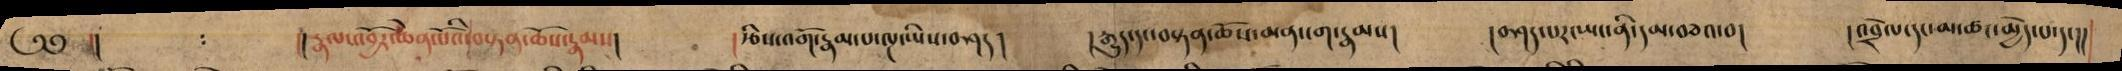༄༅ །། །།རྣལ་འབྱོར་ཆེན་པོའི་བསྟན་ཆོས་རྣམས། །རྩོས་འགོ་རྣམ་པ་ལྔ་ཡིས་བཤད། །རྒྱུད་དང་བསྟན་ཆོས་མན་ངག་རྣམས། །བཤད་པར་ཡང་ནི་དམ་བཅའ་བ། །འབྲེལ་དང་མ་ཚང་མྱེད་པ་དང་།།
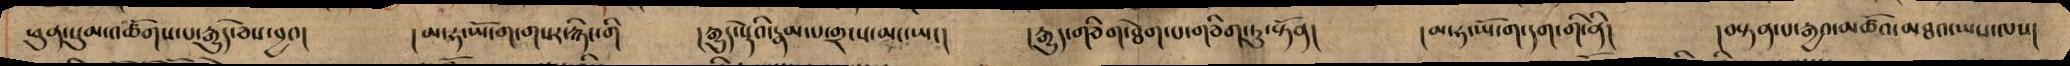ཕུན་སུམ་འཚོགས་པ་རྒྱུད་ཅེས་བྱའ། །མ་ཧ་ཡོ་ག་གསར་རྙིང་གི །རྒྱུད་སྡེའི་རྣམ་པ་གྲངས་མང་ཡང། །རྒྱུད་གཅིག་ཐེག་པ་གཅིག་ཏུ་སྟོན། །མ་ཧ་ཡོ་ག་དག་གི་ནི། །བསྟན་པ་རྒྱའ་མཚོའ་མཐའ་ཡས་ལས།
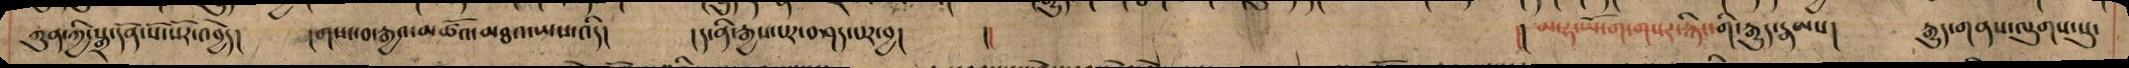ཀུན་གྱི་སྒྲ་དོན་སོ་སོར་འབྱེད། །གསང་བ་རྒྱའ་མཚོའ་མཐའ་ཡས་འདི། །ད་ནི་རྒྱས་པར་བཤད་པར་བྱ། །། །།མ་ཧ་ཡོ་ག་གསར་རྙིང་གི་རྒྱུད་རྣམས། རྒྱུད་གནས་ལུགས་སུ་
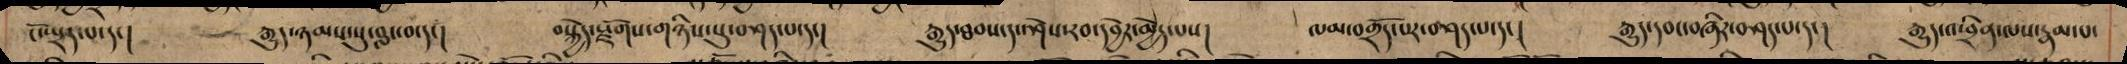ངོ་སྤྲད་པ་དང། རྒྱུད་ཉམས་སུ་བླང་བ་དང། བསྐྱེད་སྫོགས་གཉིས་སུ་བཤད་པ་དང། རྒྱུད་ཐབས་དང་ཤེས་རབ་དབྱེར་མྱེད་པས། ལམ་བགྲོད་པར་བཤད་པ་དང། རྒྱུད་དབང་བཞིར་བཤད་པ་དང། རྒྱུད་འཕྲིན་ལས་རྣམ་པ་
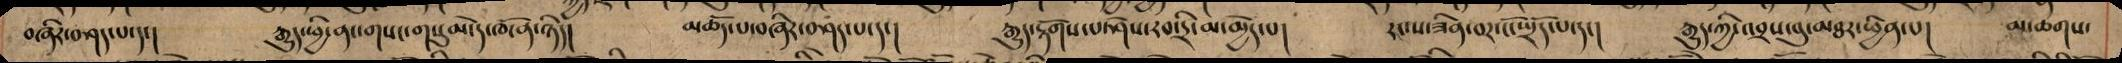བཞིར་བཤད་པ་དང། རྒྱུད་ཕྱི་ནང་གསང་གསུམ་དེ་ཁོ་ན་ཉིད། མཆོད་པ་བཞིར་བཤད་པ་དང། རྒྱུད་རྟོགས་པ་ཤེས་རབ་དྲི་མ་མྱེད་པ། རང་ས་ཟིན་བར་ངོ་སྤྲོད་པ་དང། རྒྱུད་ཀྱི་འབྲས་བུ་མཐར་ཕྱིན་པ། མ་ཆགས་
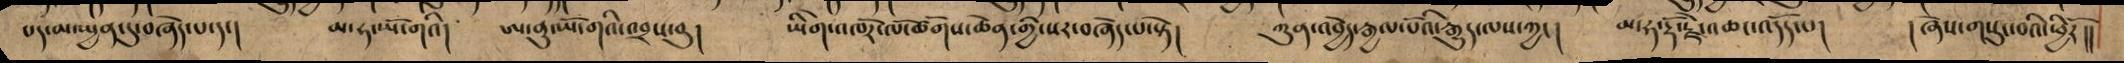པད་མ་སྤྱན་དུ་བཞེད་པ་དང། མ་ཧ་ཡོ་གའི། ཨ་ནུ་ཡོ་གའི་འབྲས་བུ། ཡིགེ་འཁོར་ལོ་ཚོགས་ཆེན་གྱི་སར་བཞེད་པ་སྟེ། ཀུན་འབྱེད་རྒྱལ་པོའི་རྒྱུད་ལས་ཀྱང། མ་ཧ་རྡོ་རྗེ་འཆང་འདོད་པ། །ཞེས་གསུང་བའི་ཕྱིརོ།།
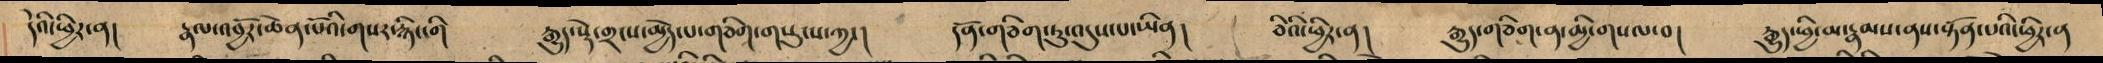དེའི་ཕྱིར་ན། རྣལ་འབྱོར་ཆེན་པོའི་གསར་རྙིང་གི རྒྱུད་སྡེ་གྲངས་མྱེད་པ་གཅིག་གསུངས་ཀྱང། དོན་གཅིག་ཏུ་འདུས་པ་ཡིན། ཅིའི་ཕྱིར་ན། རྒྱུད་གཅིག་ན་མྱི་གསལ་བ། རྒྱུད་ཕྱི་མ་རྣམས་ནས་སྟོན་པའི་ཕྱིར་ན
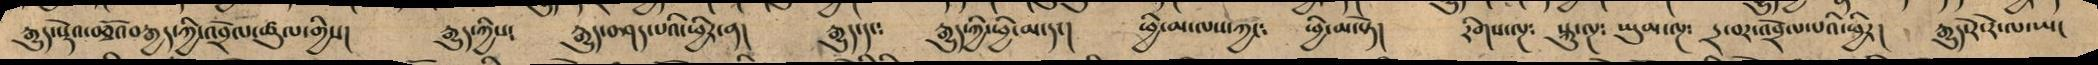རྒྱུད་སྡེའ་བཅྭོའ་བརྒྱད་ཀྱི་འབྲེལ་ཚུལ་གྱིས། རྒྱུད་ཀྱིས༴ རྒྱུད་བཤད་པའི་ཕྱིར་ན། རྒྱུད་དང༴ རྒྱུད་ཀྱི་ཕྱི་མ་དང། ཕྱི་མ་ལས་ཀྱང༴ ཕྱི་མ་སྟེ། རིགས་ལྔ༴ སྐུ་ལྔ༴ ཡུམ་ལྔ༴ དྲ་བར་འབྲེལ་པའི་ཕྱིར། རྒྱུད་རེ་རེ་ལ་ཡང
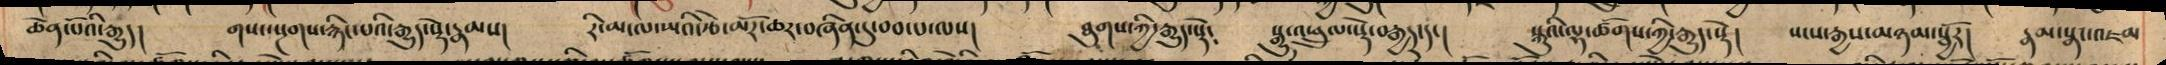ཆེན་པོའི་རྒྱུད། གསང་སྔགས་རྙིང་པའི་རྒྱུད་སྡེ་རྣམས། རི་མངལ་ཡའི་རྩེ་མོར་ཆར་བཞིན་དུ་བབ་པ་ལས། ཐུགས་ཀྱི་རྒྱུད་སྡེ༴ སྒྱུ་འཕྲུལ་སྡེ་བརྒྱད་དང། སྐུའི་ལྷ་ཚོགས་ཀྱི་རྒྱུད་སྡེ། སངས་རྒྱས་མཉམ་སྦྱོར། རྣམ་སྣང་འཇམ
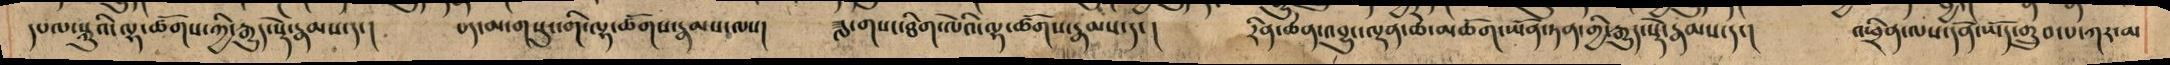དཔལ་སྐུའི་ལྷ་ཚོགས་ཀྱི་རྒྱུད་སྡེ་རྣམས་དང། པད་མ་གསུང་གི་ལྷ་ཚོགས་རྣམས་ལས། ཟླ་གསང་ཐིག་ལེའི་ལྷ་ཚོགས་རྣམས་དང། རིན་ཆེན་འབྱུང་ལྡན་ཆེ་མཆོག་ཡོན་ཏན་གྱི་རྒྱུད་སྡེ་རྣམས་དང། འཕྲིན་ལས་དོན་ཡོད་གྲུབ་པ་ཀར་མ
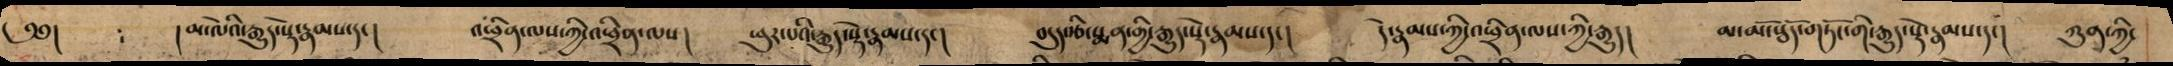༄༅། །མ་ལེའི་རྒྱུད་སྡེ་རྣམས་དང། འཕྲིན་ལས་ཀྱི་འཕྲིན་ལས། ཕུར་པའི་རྒྱུད་སྡེ་རྣམས་དང། བདུད་རྩི་སྨན་གྱི་རྒྱུད་སྡེ་རྣམས་དང། དེ་རྣམས་ཀྱི་འཕྲིན་ལས་ཀྱི་རྒྱུད། མ་མོ་སྦོད་གཏོང་གི་རྒྱུད་སྡེ་རྣམས་དང། ཀུན་ཀྱི་
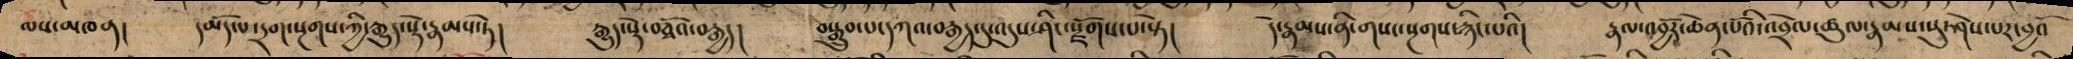མས་མཁན། དམོད་པ་དྲག་སྔགས་ཀྱི་རྒྱུད་སྡེ་རྣམས་ཏེ། རྒྱུད་སྡེ་བཅྭོའ་བརྒྱད། བསྒྲུབ་པ་དཀའ་བརྒྱད་དུ་འདུས་ཤིང་སྫོགས་པ་སྟེ། དེ་རྣམས་ནི་གསང་སྔགས་རྙིང་པའི། རྣལ་འབྱོར་ཆེན་པོའི་འབྲེལ་ཚུལ་རྣམས་སུ་ཤེས་པར་བྱའོ
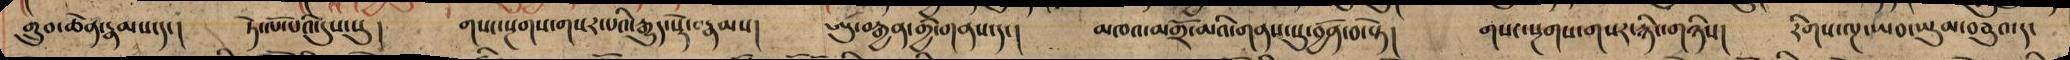གྲུབ་ཆེན་རྣམས་དང། ཏེ་ལོ་པའི་དུས་སུ། གསང་སྔགས་གསར་པའི་རྒྱུད་སྡེ་རྣམས། ཨུ་བརྒྱན་གྱི་གནས་དང། མཁའ་མགྲོ་མའི་གནས་སུ་བྱོན་བ་སྟེ། གསང་སྔགས་གསར་རྙིང་གཉིས། རིགས་ལྔ་ཡབ་ཡུམ་བཅུའ་དང
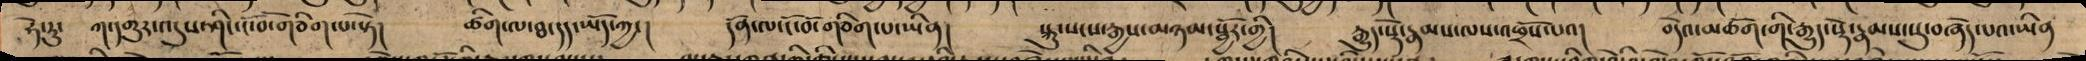ཧེ་རུ་ ཀ་དགྱུར་འདུས་ཤིང་ངོ་བོ་གཅིག་པ་སྟེ། ཚིག་ལ་ཐ་དད་ཡོད་ཀྱང། དོན་ལ་ངོ་བོ་གཅིག་པ་ཡིན། སྐུ་སངས་རྒྱས་མཉམ་སྦྱོར་གྱི། རྒྱུད་སྡེ་རྣམས་ལས་འཕྲོས་པའ། བདེའ་མཆོག་གི་རྒྱུད་སྡེ་རྣམས་སུ་བཞེད་པའ་ཡིན
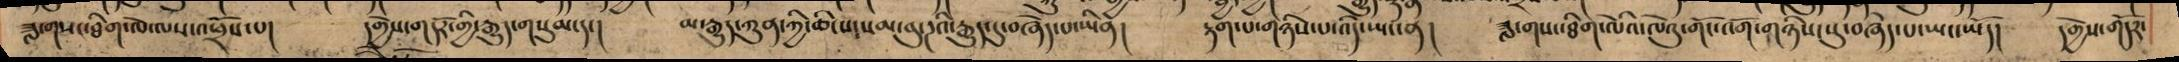ཟླ་གསང་ཐིག་ལེ་ལས་འཕྲོས་པ། དགྱེས་གདོར་གྱི་རྒྱུད་གསུམ་དང། མ་རྒྱུད་ཀུན་ཀྱི་ཆི་སངས་མ་བུ་ལྔའི་རྒྱུད་དུ་བཞེད་པ་ཡིན། རྟག་པ་གཉིས་པ་འདི་ཡང་ན། ཟླ་གསང་ཐིག་ལེའི་ལེའུ་གོང་འོག་གཉིས་སུ་བཞེད་པ་ཡང་ཡོད། དགྱེས་གདོར་
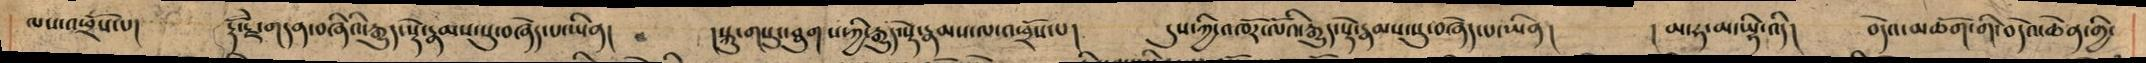ལས་འཕྲོས་པ། རྡོ་རྗེ་གདན་བཞིའི་རྒྱུད་སྡེ་རྣམས་སུ་བཞེད་པ་ཡིན། །སྐུ་གསུང་ཐུགས་ཀྱི་རྒྱུད་སྡེ་རྣམས་ལ་འཕྲོས་པ། དུས་ཀྱི་འཁོར་ལོའི་རྒྱུད་སྡེ་རྣམས་སུ་བཞེད་པ་ཡིན། །མ་ཧ་མ་ཡྷི་འདི། བདེའ་མཆོག་གི་བདེའ་ཆེན་གྱི་
